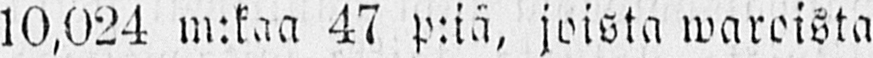10,024 m:kaa 47 p:iä, joista waroista
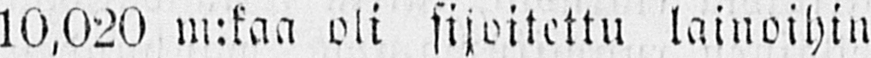10,020 m:kaa oli sijoitettu lainoihin
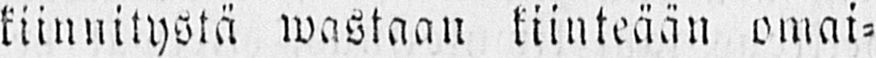kiinnitystä wastaan kiinteään omai-
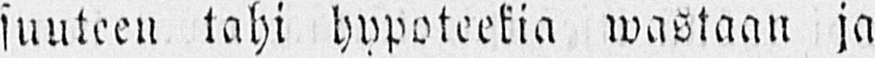suuteen tahi hypoteekia wastaan ja
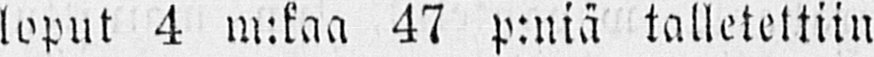loput 4 m:kaa 47 p:niä talletettiin
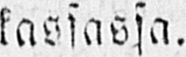kassassa.
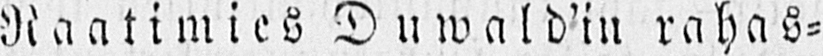Raatimies Duwald'in rahas-
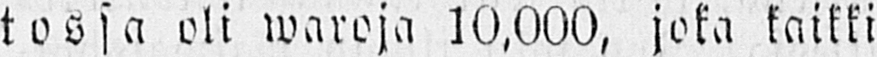tossa oli waroja 10.000, joka kaikki
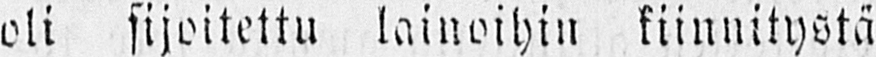oli sijoitettu lainoihin kiinnitystä
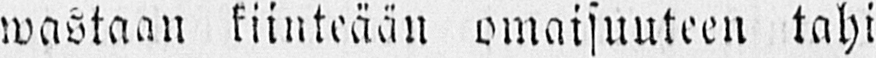wastaan kiinteään omaisuuteen tahi
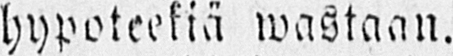hypoteekiä wastaan.
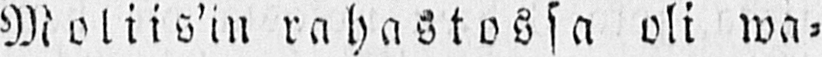Moliis'in rahastossa oli wa-
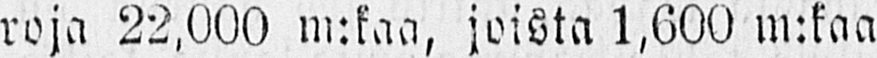roja 22,000 m:kaa, joista 1,600 m:kaa
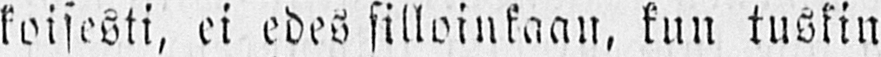koisesti, ei edes silloinkaan, kun tuskin
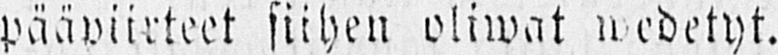pääpiirteet siihen oliwat wedetyt.
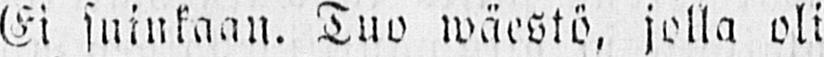Ei suinkaan. Tuo wäestö, jolla oli
